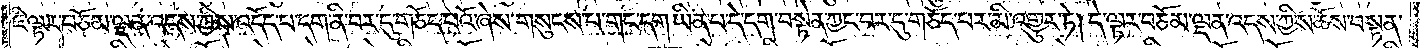ཇི་ལྟར་བཅོམ་ལྡན་འདས་ཀྱིས་འདོད་པ་དག་ནི་བར་དུ་གཅོད་པའོ་ཞེས་གསུངས་པ་གང་དག་ཡིན་པ་དེ་དག་བསྟེན་ཀྱང་བར་དུ་གཅོད་པར་མི་འགྱུར་ཏེ། དེ་ལྟར་བཅོམ་ལྡན་འདས་ཀྱིས་ཆོས་བསྟན་
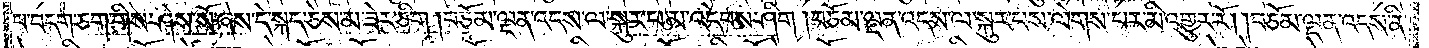པ་བདག་ཅག་གིས་ཤེས་སོ་ཞེས་དེ་སྐད་ཅེས་མ་ཟེར་ཅིག །བཅོམ་ལྡན་འདས་ལ་སྐུར་པ་མ་འདེབས་ཤིག །བཅོམ་ལྡན་འདས་ལ་སྐུར་པས་ལེགས་པར་མི་འགྱུར་རོ། །བཅོམ་ལྡན་འདས་ནི་
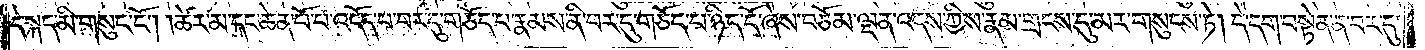དེ་སྐད་མི་གསུང་ངོ༌། །ཚེར་མ་དང་ཆེན་པོ་པ་འདོད་པ་བར་དུ་གཅོད་པ་རྣམས་ནི་བར་དུ་གཅོད་པ་ཉིད་དོ་ཞེས་བཅོམ་ལྡན་འདས་ཀྱིས་རྣམ་གྲངས་དུ་མར་གསུངས་ཏེ། དེ་དག་བསྟེན་ན་བར་དུ་
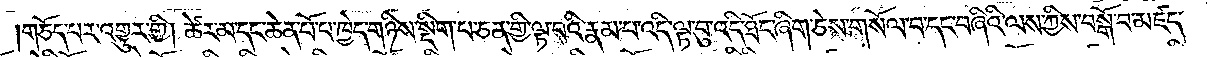གཅོད་པར་འགྱུར་གྱི། ཚེར་མ་དང་ཆེན་པོ་པ་ཁྱེད་གཉིས་སྡིག་པ་ཅན་གྱི་ལྟ་བའི་རྣམ་པ་འདི་ལྟ་བུ་འདི་ཐོང་ཞིག་ཅེས་གསོལ་བ་དང་བཞིའི་ལས་ཀྱིས་བསྒོ་བ་མཛད་
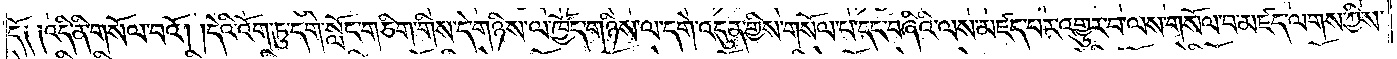དོ༑ ༑འདི་ནི་གསོལ་བའོ། །དེའི་འོག་ཏུ་དགེ་སློང་གཅིག་གིས་དེ་གཉིས་ལ་ཁྱོད་གཉིས་ལ་དགེ་འདུན་གྱིས་གསོལ་པ་དང་བཞིའི་ལས་མཛད་པར་འགྱུར་བ་ལས་གསོལ་བ་མཛད་ལགས་ཀྱིས་
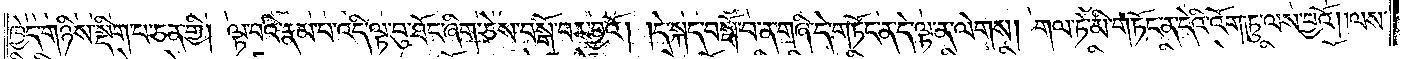ཁྱེད་གཉིས་སྡིག་པ་ཅན་གྱི། ལྟ་བའི་རྣམ་པ་འདི་ལྟ་བུ་ཐོང་ཞིག་ཅེས་བསྒོ་བར་བྱའོ། །དེ་སྐད་བསྒོ་བ་ན་གཞི་དེ་གཏོང་ན་དེ་ལྟ་ན་ལེགས། གལ་ཏེ་མི་གཏོང་ན་དེའི་འོག་ཏུ་ལས་བྱའོ། །ལས་
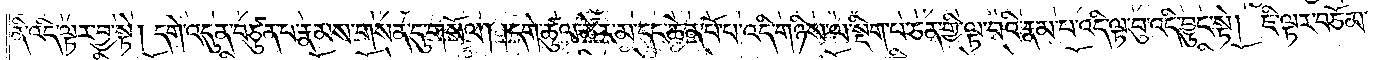ནི་འདི་ལྟར་བྱ་སྟེ། དགེ་འདུན་བཙུན་པ་རྣམས་གསན་དུ་གསོལ། །དགེ་ཚུལ་ཚེར་མ་དང་ཆེན་པོ་པ་འདི་གཉིས་ལ་སྡིག་པ་ཅན་གྱི་ལྟ་བའི་རྣམ་པ་འདི་ལྟ་བུ་འདི་བྱུང་སྟེ། ཇི་ལྟར་བཅོམ་
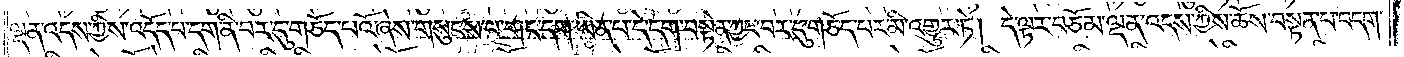ལྡན་འདས་ཀྱིས་འདོད་པ་དག་ནི་བར་དུ་གཅོད་པའོ་ཞེས་གསུངས་པ་གང་དག་ཡིན་པ་དེ་དག་བསྟེན་ཀྱང་བར་དུ་གཅོད་པར་མི་འགྱུར་ཏེ། དེ་ལྟར་བཅོམ་ལྡན་འདས་ཀྱིས་ཆོས་བསྟན་པ་བདག་
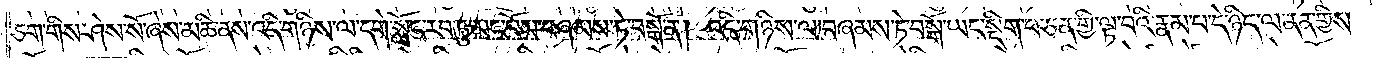ཅག་གིས་ཤེས་སོ་ཞེས་མཆི་ནས་འདི་གཉིས་ལ་དགེ་སློང་རབ་ཏུ་མང་པོས་བཞམས་ཏེ་བསྒོ་ན། འདི་གཉིས་ལ་བཞམས་ཏེ་བསྒོ་ཡང་སྡིག་པ་ཅན་གྱི་ལྟ་བའི་རྣམ་པ་དེ་ཉིད་ལ་ནན་གྱིས་
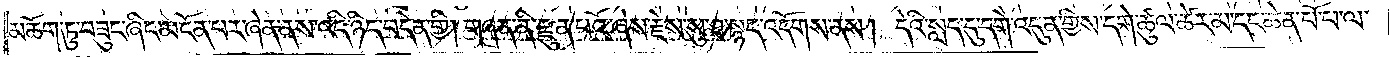མཆོག་ཏུ་བཟུང་ཞིང་མངོན་པར་ཞེན་ནས་འདི་ཉིད་བདེན་གྱི། གཞན་ནི་རྫུན་པའོ་ཞེས་རྗེས་སུ་ཐ་སྙད་འདོགས་ནས། དེའི་སླད་དུ་དགེ་འདུན་གྱིས་དགེ་ཚུལ་ཚེར་མ་དང་ཆེན་པོ་པ་ལ་
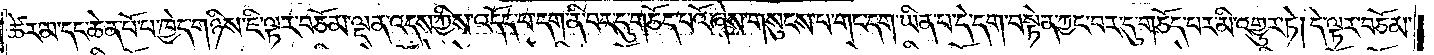ཚེར་མ་དང་ཆེན་པོ་པ་ཁྱེད་གཉིས་ཇི་ལྟར་བཅོམ་ལྡན་འདས་ཀྱིས་འདོད་པ་དག་ནི་བར་དུ་གཅོད་པའོ་ཞེས་གསུངས་པ་གང་དག་ཡིན་པ་དེ་དག་བསྟེན་ཀྱང་བར་དུ་གཅོད་པར་མི་འགྱུར་ཏེ། དེ་ལྟར་བཅོམ་
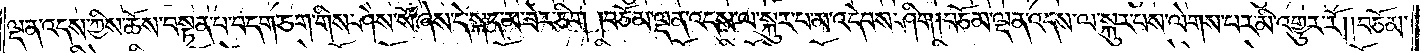ལྡན་འདས་ཀྱིས་ཆོས་བསྟན་པ་བདག་ཅག་གིས་ཤེས་སོ་ཞེས་དེ་སྐད་མ་ཟེར་ཅིག །བཅོམ་ལྡན་འདས་ལ་སྐུར་པ་མ་འདེབས་ཤིག །བཅོམ་ལྡན་འདས་ལ་སྐུར་པས་ལེགས་པར་མི་འགྱུར་རོ། །བཅོམ་
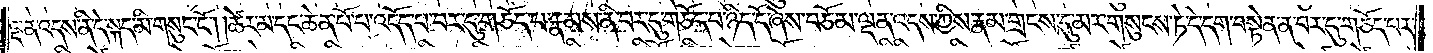ལྡན་འདས་ནི་དེ་སྐད་མི་གསུང་ངོ༌། །ཚེར་མ་དང་ཆེན་པོ་པ་འདོད་པ་བར་དུ་གཅོད་པ་རྣམས་ནི་བར་དུ་གཅོད་པ་ཉིད་དོ་ཞེས་བཅོམ་ལྡན་འདས་ཀྱིས་རྣམ་གྲངས་དུ་མར་གསུངས་ཏེ་དེ་དག་བསྟེན་ན་བར་དུ་གཅོད་པར་
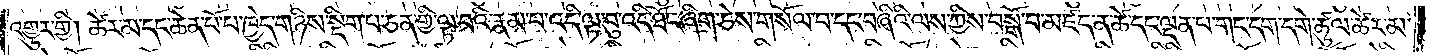འགྱུར་གྱི། ཚེར་མ་དང་ཆེན་པོ་པ་ཁྱེད་གཉིས་སྡིག་པ་ཅན་གྱི་ལྟ་བའི་རྣམ་པ་འདི་ལྟ་བུ་འདི་ཐོང་ཞིག་ཅེས་གསོལ་བ་དང་བཞིའི་ལས་ཀྱིས་བསྒོ་བ་མཛད་ན་ཚེ་དང་ལྡན་པ་གང་དག་དགེ་ཚུལ་ཚེར་མ་
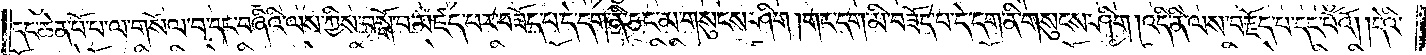དང་ཆེན་པོ་པ་ལ་གསོལ་བ་དང་བཞིའི་ལས་ཀྱིས་བསྒོ་བ་མཛད་པར་བཟོད་པ་དེ་དག་ནི་ཅང་མ་གསུངས་ཤིག །གང་དག་མི་བཟོད་པ་དེ་དག་ནི་གསུངས་ཤིག །འདི་ནི་ལས་བརྗོད་པ་དང་པའོ། །དེའི་
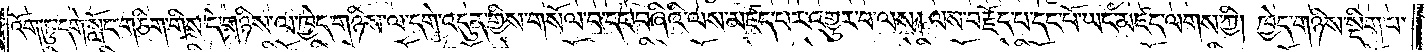འོག་ཏུ་དགེ་སློང་གཅིག་གིས་དེ་གཉིས་ལ་ཁྱེད་གཉིས་ལ་དགེ་འདུན་གྱིས་གསོལ་བ་དང་བཞིའི་ལས་མཛད་པར་འགྱུར་བ་ལས། ལས་བརྗོད་པ་དང་པོ་ཡང་མཛད་ལགས་ཀྱི། ཁྱེད་གཉིས་སྡིག་པ་
